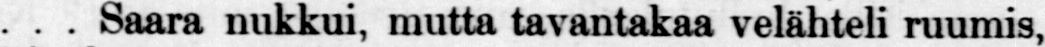. . . Saara nukkui, mutta tavantakaa velähteli ruumis,
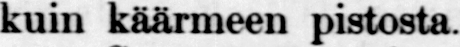kuin käärmeen pistosta.
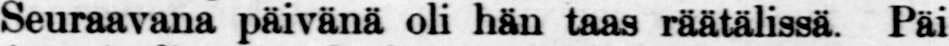Seuraavana päivänä oli hän taas räätälissä. Päi-
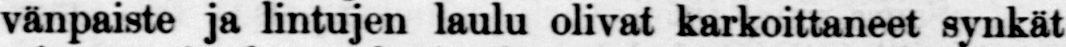vänpaiste ja lintujen laulu olivat karkoittaneet synkät
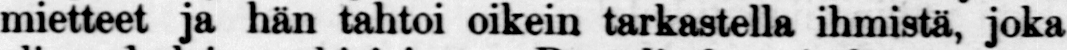mietteet ja hän tahtoi oikein tarkastella ihmistä, joka
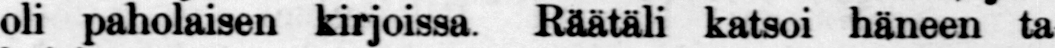oli paholaisen kirjoissa. Räätäli katsoi häneen ta-
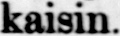kaisin.
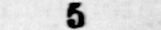5
